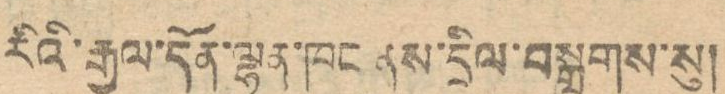རིའི་རྒྱལ་དོན་ལྷན་ཁང ནས་དྲིལ་བསྒྲགས་སུ།
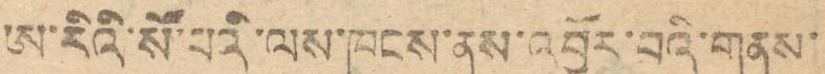ཨ་རིའི་སོ་པའི་ལས་ཁུངས་ནས་འབྱོར་བའི་གནས་
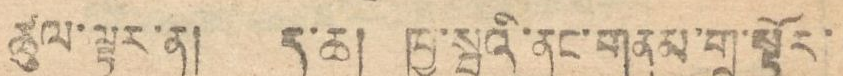ཚུལ་ལྟར་ན། ད་ཆ། ཁྱུ་སྦའི་ནང་གནས་གྲུ་སྟོར་
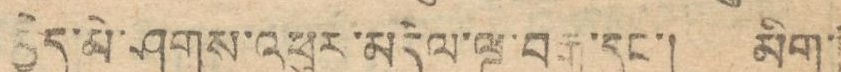བྱེད་མི་ཤུགས་འཕུར་མདེལ་ལྔ་བརྒྱ་དང་། མིག་
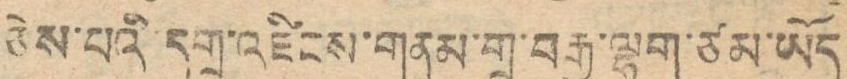ཅེས་པའི་དགྲ་འཛིངས་གནས་གྲུ་བརྒྱ་ལྷག་ཙམ་ཡོད
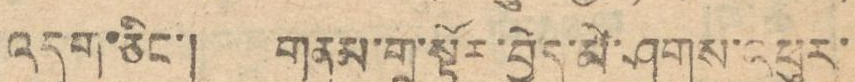འདུག་ཅིང་། གནམ་གྲུ་སྟོར་བྱེད་མེ་ཤུགས་འཕུར་
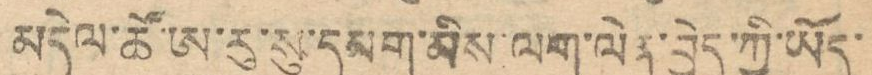མདེལ་ཚོ་ཨུ་རུ་སུ་དམག་མིས་ལག་ལེན་བྱེད་ཡོད་
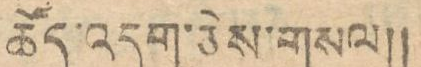ཚོད་འདུག་ཅེས་གསལ།།
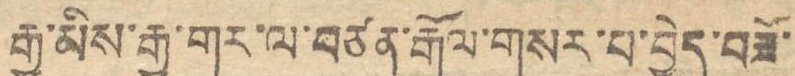རྒྱ་མིས་རྒྱ་གར་ལ་བཙན་རྒོལ་གསར་པ་བྱེད་བཟོ་
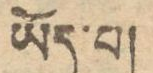ཡོད་པ།
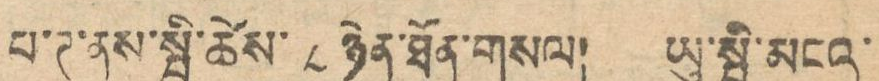པ་ཊ་ནས་སྤྱི་ཚེས་ ༨ ཉིན་ཐོན་གསལ། ཡུ་སྦི་མངའ་
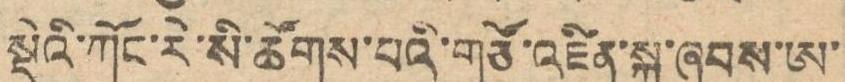སྡེའི་ཀོང་རེ་སི་ཚོགས་པའི་གཙོ་འཛིན་སྐུ་ཞབས་ཨ་
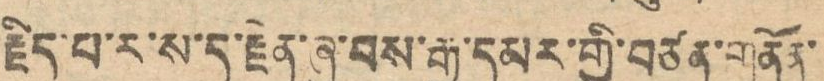རྗིད་པ་ར་ས་ད་རྗེན་ཞུ་བས་རྒྱ་དམར་གྱི་བཙན་གནོན་
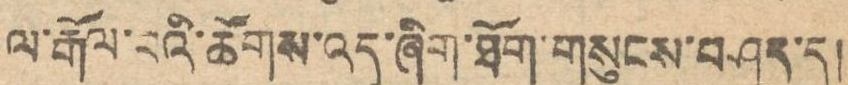ལ་རྒོལ་བའི་ཚོགས་འདུ་ཞིག་ཐོག་གསུངས་བཤད་དུ།
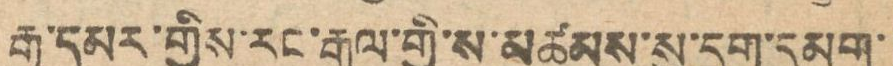རྒྱ་དམར་གྱིས་རང་རྒྱལ་གྱི་ས་མཚམས་སུ་དྲག་དམག་
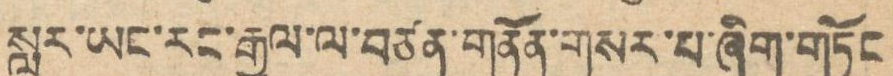སླར་ཡངརང་རྒྱལ་ལ་བཙན་གནོན་གསར་པ་ཞིག་གཏོང
